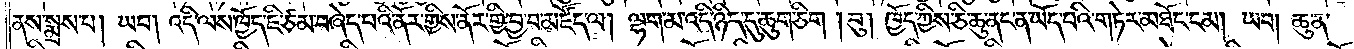ནས་སྨྲས་པ། ཡབ། འདི་ལས་ཁྱོད་ཇི་ཙམ་བཞེད་པའི་ནོར་གྱིས་ནོར་གྱི་བྱ་བ་མཛོད་ལ། ལྷག་མ་འདི་ཉིད་དུ་ཆུག་ཅིག །བུ། ཁྱོད་ཀྱིས་ཅི་ཆུ་ནང་ན་ཡོད་པའི་གཏེར་མཐོང་ངམ། ཡབ། ཆུ་ན་
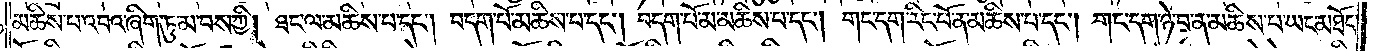མཆིས་པ་འབའ་ཞིག་ཏུ་མ་བས་ཀྱི། ཐང་ལ་མཆིས་པ་དང༌། བདག་པོ་མཆིས་པ་དང༌། བདག་པོ་མ་མཆིས་པ་དང༌། གང་དག་རིང་པོ་ན་མཆིས་པ་དང༌། གང་དག་ཉེ་བ་ན་མཆིས་པ་ཡང་མཐོང་
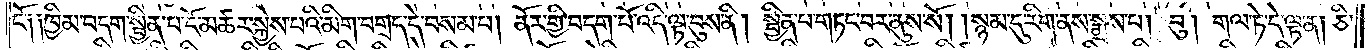ངོ༌། །ཁྱིམ་བདག་སྦྱིན་པ་ངོ་མཚར་སྐྱེས་པའི་མིག་བགྲད་དེ་བསམ་པ། ནོར་གྱི་བདག་པོ་འདི་ལྟ་བུས་ནི། སྦྱིན་པ་གཏང་བར་ནུས་སོ། །སྙམ་དུ་རིག་ནས་སྨྲས་པ། བུ། གལ་ཏེ་དེ་ལྟ་ན། ཅི་
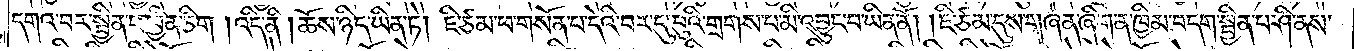དགའ་བར་སྦྱིན་པ་བྱིན་ཅིག །འདི་ནི་།ཆོས་ཉིད་ཡིན་ཏེ། ཇི་ཙམ་ཕ་གསོན་པ་དེའི་བར་དུ་བུའི་གྲགས་པ་མི་འབྱུང་བ་ཡིན་ནོ། །ཇི་ཙམ་དུས་གཞན་ཞིག་ན་ཁྱིམ་བདག་སྦྱིན་པ་ཤི་ནས་
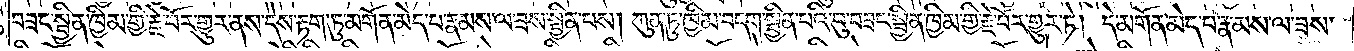བཟང་སྦྱིན་ཁྱིམ་གྱི་རྗེ་བོར་གྱུར་ནས་དེས་རྟག་ཏུ་མགོན་མེད་པ་རྣམས་ལ་ཟས་སྦྱིན་པས། ཀུན་ཏུ་ཁྱིམ་བདག་སྦྱིན་པའི་བུ་བཟང་སྦྱིན་ཁྱིམ་གྱི་རྗེ་བོར་གྱུར་ཏེ། དེ་མགོན་མེད་པ་རྣམས་ལ་ཟས་
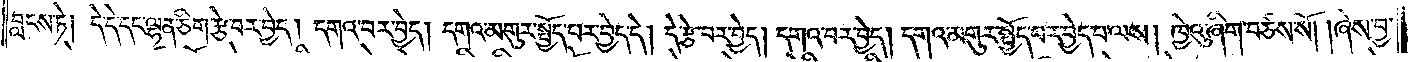བླངས་ཏེ། དེ་དེ་དང་ལྷན་ཅིག་རྩེ་བར་བྱེད། དགའ་བར་བྱེད། དགའ་མགུར་སྤྱོད་པར་བྱེད་དེ། དེ་རྩེ་བར་བྱེད། དགའ་བར་བྱེད། དགའ་མགུར་སྤྱོད་པར་བྱེད་པ་ལས། ཁྱེའུ་ཞིག་བཙས་སོ། །ཞེས་བྱ་
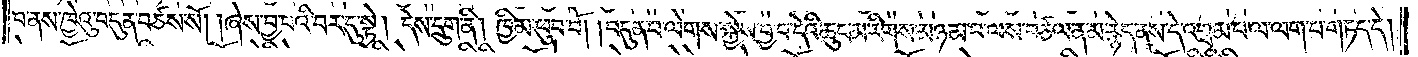བ་ནས་ཁྱེའུ་བདུན་བཙས་སོ། །ཞེས་བྱ་བའི་བར་དུ་སྟེ། དེས་དྲུག་ནི། ཁྱིམ་ཕུབ་བོ། །བདུན་པ་ལེགས་སྐྱེས་བྱ་བ་དེའི་ཆུང་མ་རིགས་མཉམ་པ་ལས་བཙལ་ན་མ་རྙེད་ནས་དེ་འགྲམ་པ་ལ་ལག་པ་གཏད་དེ།
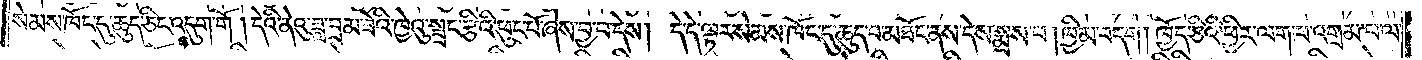སེམས་ཁོང་དུ་ཆུད་ཅིང་འདུག་གོ །དེའི་ནེའུ་ཟླ་བྲམ་ཟེའི་ཁྱེའུ་སྦྲང་རྩིའི་ཕུང་པོ་ཞེས་བྱ་བ་དེས། དེ་དེ་ལྟར་སེམས་ཁོང་དུ་ཆུད་བ་མཐོང་ནས་དེས་སྨྲས་པ། ཁྱིམ་བདག །ཁྱོད་ཅིའི་ཕྱིར་ལག་པ་འགྲམ་པ་ལ་
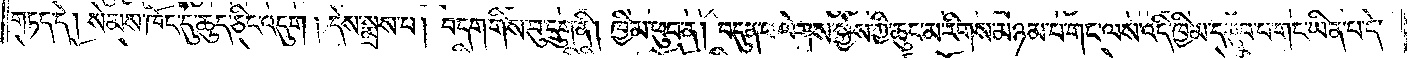གཏད་དེ། སེམས་ཁོང་དུ་ཆུད་ཅིང་འདུག །དེས་སྨྲས་པ། བདག་གིས་བུ་དྲུག་ནི། ཁྱིམ་ཕུབ་ན། བདུན་པ་ལེགས་སྐྱེས་ཀྱི་ཆུང་མ་རིགས་མཉམ་པ་གང་ལས་འདི་ཁྱིམ་དབུབ་པ་གང་ཡིན་པ་དེ་
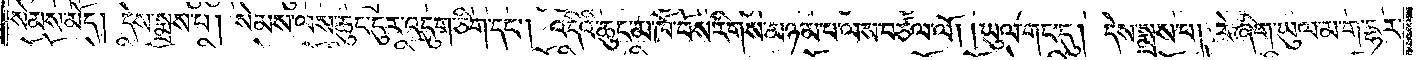སེམས་མོད། དེས་སྨྲས་པ། སེམས་ལས་ཆུང་ངུར་འདུག་ཅིག་དང༌། འདིའི་ཆུང་མ་ཁོ་བོས་རིགས་མཉམ་པ་ལས་བཙལ་ལོ། །ཡུལ་གང་དུ། དེས་སྨྲས་པ། རེ་ཞིག་ཡུལ་མ་ག་དྷར་
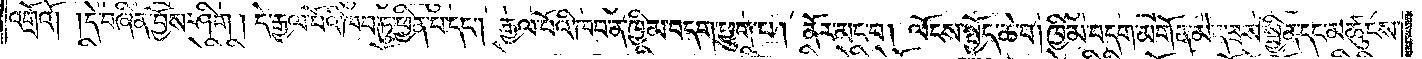འགྲོའོ། །དེ་བཞིན་བྱོས་ཤིག། དེ་རྒྱལ་པོའི་ཁབ་ཏུ་ཕྱིན་པ་དང༌། རྒྱལ་པོའི་ཁབ་ན་ཁྱིམ་བདག་ཕྱུག་པ། ནོར་མང་བ། ལོངས་སྤྱོད་ཆེ་བ། ཁྱིམ་བདག་མགོན་མེད་ཟས་སྦྱིན་དང་མཚུངས་
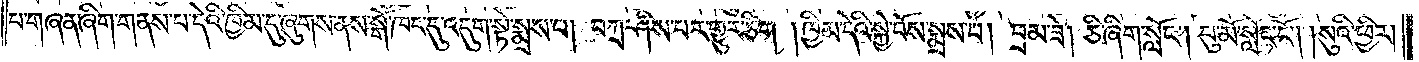པ་གཞན་ཞིག་གནས་པ་དེའི་ཁྱིམ་དུ་ཞུགས་ནས་སྒོ་ཁང་དུ་འདུག་སྟེ་སྨྲས་པ། བཀྲ་ཤིས་པར་གྱུར་ཅིག །ཁྱིམ་དེའི་སྐྱེ་བོས་སྨྲས་པ། བྲམ་ཟེ། ཅི་ཞིག་སློང༌། བུ་མོ་སློང་ངོ༌། །སུའི་ཕྱིར།
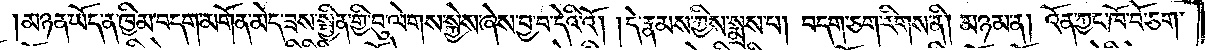མཉན་ཡོད་ན་ཁྱིམ་བདག་མགོན་མེད་ཟས་སྦྱིན་གྱི་བུ་ལེགས་སྐྱེས་ཞེས་བྱ་བ་དེའི་འོ། །དེ་རྣམས་ཀྱིས་སྨྲས་པ། བདག་ཅག་རིགས་ནི། མཉམ་ན། འོན་ཀྱང་ཁོ་བོ་ཅག་
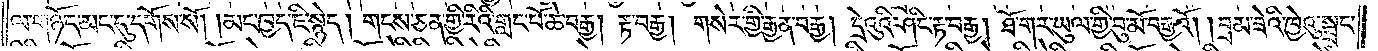ལ་གཉོད་མང་དུ་དགོས་སོ། །མང་ཁྱད་ཇི་སྙེད། གངས་ཅན་གྱི་རིའི་གླང་པོ་ཆེ་བརྒྱ། རྟ་བརྒྱ། གསེར་གྱི་རྒྱན་བརྒྱ། དྲེའུའི་ཤིང་རྟ་བརྒྱ། ཐོ་གར་ཡུལ་གྱི་བུ་མོ་བརྒྱའོ། །བྲམ་ཟེའི་ཁྱེའུ་སྦྲང་
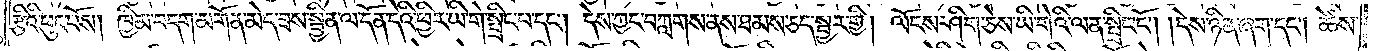རྩིའི་ཕུང་པོས། ཁྱིམ་བདག་མགོན་མེད་ཟས་སྦྱིན་ལ་དོན་དེའི་ཕྱིར་ཡི་གེ་སྤྲིང་པ་དང༌། དེས་ཀྱང་བཀླགས་ནས་ཐམས་ཅད་སྦྱར་གྱི། ལོངས་ཤིག་ཅེས་ཡི་གེའི་ལན་སྤྲིང་ངོ༌། །དེས་ཉིན་ཞག་དང༌། ཚེས་
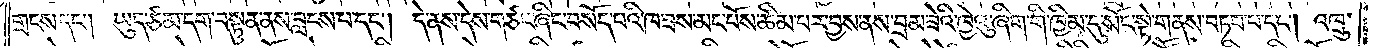གྲངས་དང༌། ཡུད་ཙམ་དག་བསྟུན་ནས་བླངས་པ་དང༌། དེ་ནས་དེས་གཙང་ཞིང་བསོད་པའི་ཁ་ཟས་མང་པོས་ཚིམ་པར་བྱས་ནས་བྲམ་ཟེའི་ཁྱེའུ་ཞིག་གི་ཁྱིམ་དུ་སོང་སྟེ་གནས་བཏབ་པ་དང༌། འཁྲུ་
